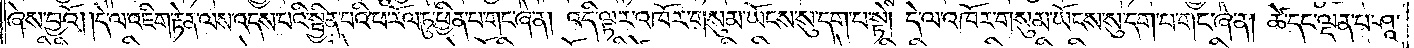ཞེས་བྱའོ། །དེ་ལ་འཇིག་རྟེན་ལས་འདས་པའི་སྦྱིན་པའི་ཕ་རོལ་ཏུ་ཕྱིན་པ་གང་ཞེ་ན། འདི་ལྟར་འཁོར་གསུམ་ཡོངས་སུ་དག་པ་སྟེ། དེ་ལ་འཁོར་གསུམ་ཡོངས་སུ་དག་པ་གང་ཞེ་ན། ཚེ་དང་ལྡན་པ་ཤཱ་
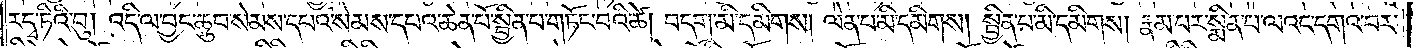ར་དྭ་ཏིའི་བུ། འདི་ལ་བྱང་ཆུབ་སེམས་དཔའ་སེམས་དཔའ་ཆེན་པོ་སྦྱིན་པ་གཏོང་བའི་ཚེ། བདག་མི་དམིགས། ལེན་པ་མི་དམིགས། སྦྱིན་པ་མི་དམིགས། རྣམ་པར་སྨིན་པ་ལའང་དགའ་བར་
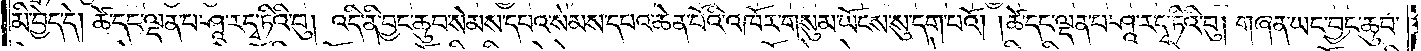མི་བྱེད་དེ། ཚེ་དང་ལྡན་པ་ཤཱ་ར་དྭ་ཏིའི་བུ། འདི་ནི་བྱང་ཆུབ་སེམས་དཔའ་སེམས་དཔའ་ཆེན་པོའི་འཁོར་གསུམ་ཡོངས་སུ་དག་པའོ། །ཚེ་དང་ལྡན་པ་ཤཱ་ར་དྭ་ཏིའི་བུ། གཞན་ཡང་བྱང་ཆུབ་
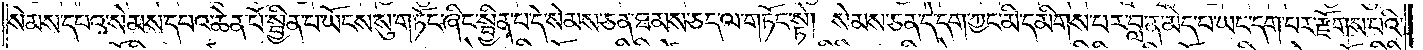སེམས་དཔའ་སེམས་དཔའ་ཆེན་པོ་སྦྱིན་པ་ཡོངས་སུ་གཏོང་ཞིང་སྦྱིན་པ་དེ་སེམས་ཅན་ཐམས་ཅད་ལ་གཏོང་སྟེ། སེམས་ཅན་དེ་དག་ཀྱང་མི་དམིགས་པར་བླ་ན་མེད་པ་ཡང་དག་པར་རྫོགས་པའི་
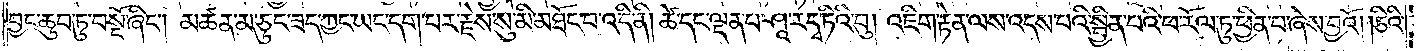བྱང་ཆུབ་ཏུ་བསྔོ་ཞིང༌། མཚན་མ་ཅུང་ཟད་ཀྱང་ཡང་དག་པར་རྗེས་སུ་མི་མཐོང་བ་འདི་ནི། ཚེ་དང་ལྡན་པ་ཤཱ་ར་དྭ་ཏིའི་བུ། འཇིག་རྟེན་ལས་འདས་པའི་སྦྱིན་པའི་ཕ་རོལ་ཏུ་ཕྱིན་པ་ཞེས་བྱའོ། །ཅིའི་
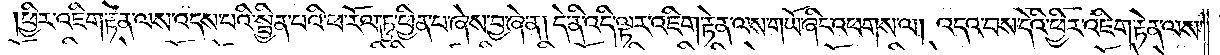ཕྱིར་འཇིག་རྟེན་ལས་འདས་པའི་སྦྱིན་པའི་ཕ་རོལ་ཏུ་ཕྱིན་པ་ཞེས་བྱ་ཞེ་ན། དེ་ནི་འདི་ལྟར་འཇིག་རྟེན་ལས་གཡོ་ཞིང་འཕགས་ལ། འདའ་བས་དེའི་ཕྱིར་འཇིག་རྟེན་ལས་
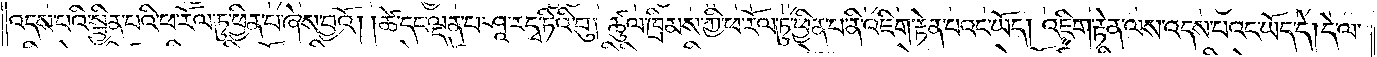འདས་པའི་སྦྱིན་པའི་ཕ་རོལ་ཏུ་ཕྱིན་པ་ཞེས་བྱའོ། །ཚེ་དང་ལྡན་པ་ཤཱ་ར་དྭ་ཏིའི་བུ། ཚུལ་ཁྲིམས་ཀྱི་ཕ་རོལ་ཏུ་ཕྱིན་པ་ནི་འཇིག་རྟེན་པའང་ཡོད། འཇིག་རྟེན་ལས་འདས་པའང་ཡོད་དེ། དེ་ལ་
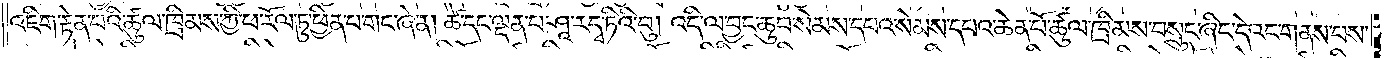འཇིག་རྟེན་པའི་ཚུལ་ཁྲིམས་ཀྱི་ཕ་རོལ་ཏུ་ཕྱིན་པ་གང་ཞེ་ན། ཚེ་དང་ལྡན་པ་ཤཱ་ར་དྭ་ཏིའི་བུ། འདི་ལ་བྱང་ཆུབ་སེམས་དཔའ་སེམས་དཔའ་ཆེན་པོ་ཚུལ་ཁྲིམས་བསྲུང་ཞིང་དེའང་གནས་པས་
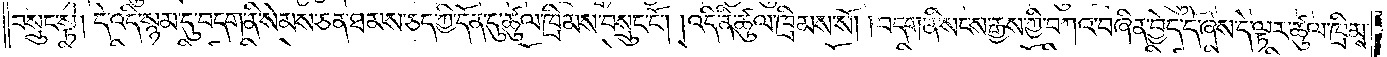བསྲུང་སྟེ། དེ་འདི་སྙམ་དུ་བདག་ནི་སེམས་ཅན་ཐམས་ཅད་ཀྱི་དོན་དུ་ཚུལ་ཁྲིམས་བསྲུང་ངོ༌། །འདི་ནི་ཚུལ་ཁྲིམས་སོ། །བདག་ནི་སངས་རྒྱས་ཀྱི་བཀའ་བཞིན་བྱེད་དོ་ཞེས་དེ་ལྟར་ཚུལ་ཁྲིམས་
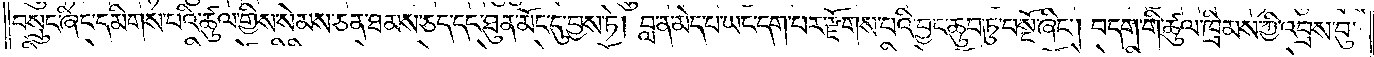བསྲུང་ཞིང་དམིགས་པའི་ཚུལ་གྱིས་སེམས་ཅན་ཐམས་ཅད་དང་ཐུན་མོང་དུ་བྱས་ཏེ། བླ་ན་མེད་པ་ཡང་དག་པར་རྫོགས་པའི་བྱང་ཆུབ་ཏུ་བསྔོ་ཞིང༌། བདག་གི་ཚུལ་ཁྲིམས་ཀྱི་འབྲས་བུ་
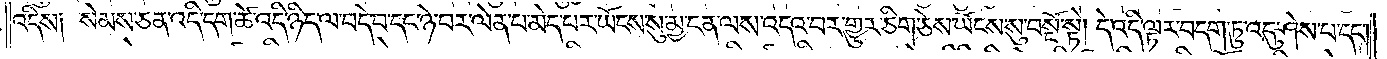འདིས། སེམས་ཅན་འདི་དག་ཚེ་འདི་ཉིད་ལ་བདེ་བ་དང་ཉེ་བར་ལེན་པ་མེད་པར་ཡོངས་སུ་མྱ་ངན་ལས་འདའ་བར་གྱུར་ཅིག་ཅེས་ཡོངས་སུ་བསྔོ་སྟེ། དེ་འདི་ལྟར་བདག་ཏུ་འདུ་ཤེས་པ་དང༌།
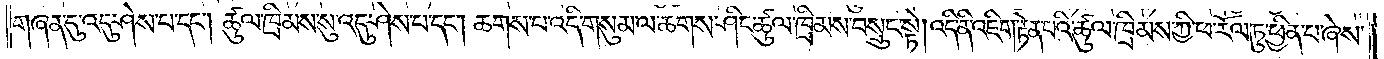གཞན་དུ་འདུ་ཤེས་པ་དང༌། ཚུལ་ཁྲིམས་སུ་འདུ་ཤེས་པ་དང༌། ཆགས་པ་འདི་གསུམ་ལ་ཆགས་ཤིང་ཚུལ་ཁྲིམས་བསྲུང་སྟེ། འདི་ནི་འཇིག་རྟེན་པའི་ཚུལ་ཁྲིམས་ཀྱི་ཕ་རོལ་ཏུ་ཕྱིན་པ་ཞེས་
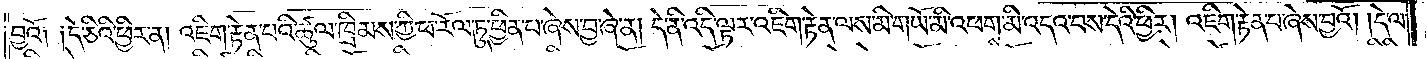བྱའོ༏ ༏དེ་ཅིའི་ཕྱིར་ཞེ་ན། འཇིག་རྟེན་པའི་ཚུལ་ཁྲིམས་ཀྱི་ཕ་རོལ་ཏུ་ཕྱིན་པ་ཞེས་བྱ་ཞེ་ན། དེ་ནི་འདི་ལྟར་འཇིག་རྟེན་ལས་མི་གཡོ་མི་འཕགས་མི་འདའ་བས་དེའི་ཕྱིར། འཇིག་རྟེན་པ་ཞེས་བྱའོ། །དེ་ལ་
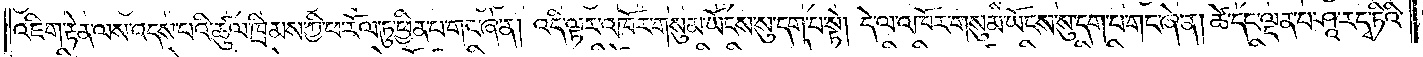འཇིག་རྟེན་ལས་འདས་པའི་ཚུལ་ཁྲིམས་ཀྱི་ཕ་རོལ་ཏུ་ཕྱིན་པ་གང་ཞེ་ན། འདི་ལྟར་འཁོར་གསུམ་ཡོངས་སུ་དག་པ་སྟེ། དེ་ལ་འཁོར་གསུམ་ཡོངས་སུ་དག་པ་གང་ཞེ་ན། ཚེ་དང་ལྡན་པ་ཤཱ་ར་དྭ་ཏིའི་
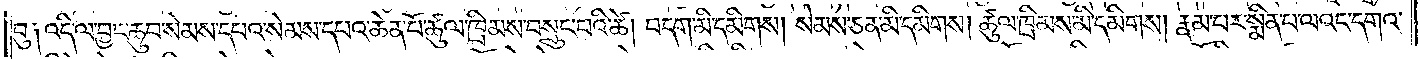བུ༏ འདི་ལ་བྱང་ཆུབ་སེམས་དཔའ་སེམས་དཔའ་ཆེན་པོ་ཚུལ་ཁྲིམས་བསྲུང་བའི་ཚེ། བདག་མི་དམིགས། སེམས་ཅན་མི་དམིགས། ཚུལ་ཁྲིམས་མི་དམིགས། རྣམ་པར་སྨིན་པ་ལའང་དགའ་
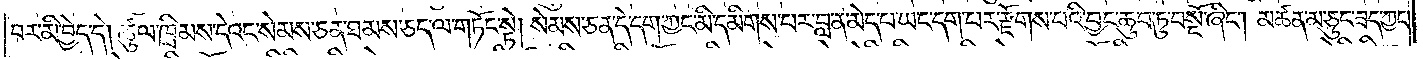བར་མི་བྱེད་དེ། ཚུལ་ཁྲིམས་དེའང་སེམས་ཅན་ཐམས་ཅད་ལ་གཏོང་སྟེ། སེམས་ཅན་དེ་དག་ཀྱང་མི་དམིགས་པར་བླ་ན་མེད་པ་ཡང་དག་པར་རྫོགས་པའི་བྱང་ཆུབ་ཏུ་བསྔོ་ཞིང༌། མཚན་མ་ཅུང་ཟད་ཀྱང་
